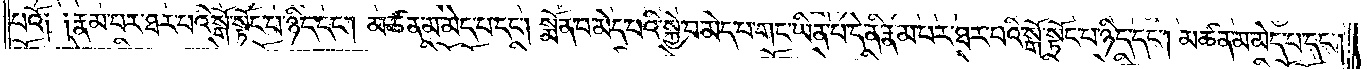པའོ། །རྣམ་པར་ཐར་པའི་སྒོ་སྟོང་པ་ཉིད་དང༌། མཚན་མ་མེད་པ་དང༌། སྨོན་པ་མེད་པའི་སྐྱེ་བ་མེད་པ་གང་ཡིན་པ་དེ་ནི་རྣམ་པར་ཐར་པའི་སྒོ་སྟོང་པ་ཉིད་དང༌། མཚན་མ་མེད་པ་དང༌།
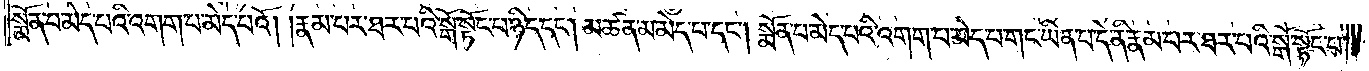སྨོན་པ་མེད་པའི་འགག་པ་མེད་པའོ། །རྣམ་པར་ཐར་པའི་སྒོ་སྟོང་པ་ཉིད་དང༌། མཚན་མ་མེད་པ་དང༌། སྨོན་པ་མེད་པའི་འགག་པ་མེད་པ་གང་ཡིན་པ་དེ་ནི་རྣམ་པར་ཐར་པའི་སྒོ་སྟོང་པ་
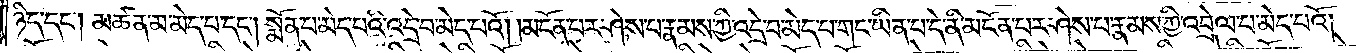ཉིད་དང༌། མཚན་མ་མེད་པ་དང༌། སྨོན་པ་མེད་པའི་འདྲེ་བ་མེད་པའོ། །མངོན་པར་ཤེས་པ་རྣམས་ཀྱི་འདྲེ་བ་མེད་པ་གང་ཡིན་པ་དེ་ནི་མངོན་པར་ཤེས་པ་རྣམས་ཀྱི་འབྲེལ་པ་མེད་པའོ།
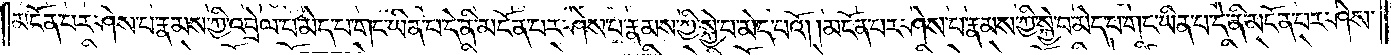མངོན་པར་ཤེས་པ་རྣམས་ཀྱི་འབྲེལ་པ་མེད་པ་གང་ཡིན་པ་དེ་ནི་མངོན་པར་ཤེས་པ་རྣམས་ཀྱི་སྐྱེ་བ་མེད་པའོ། །མངོན་པར་ཤེས་པ་རྣམས་ཀྱི་སྐྱེ་བ་མེད་པ་གང་ཡིན་པ་དེ་ནི་མངོན་པར་ཤེས་
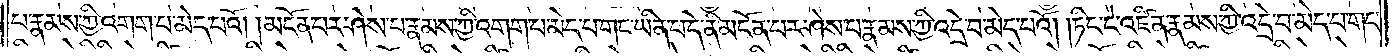པ་རྣམས་ཀྱི་འགག་པ་མེད་པའོ། །མངོན་པར་ཤེས་པ་རྣམས་ཀྱི་འགག་པ་མེད་པ་གང་ཡིན་པ་དེ་ནི་མངོན་པར་ཤེས་པ་རྣམས་ཀྱི་འདྲེ་བ་མེད་པའོ། །ཏིང་ངེ་འཛིན་རྣམས་ཀྱི་འདྲེ་བ་མེད་པ་གང་
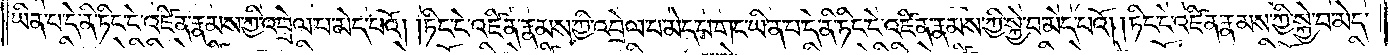ཡིན་པ་དེ་ནི་ཏིང་ངེ་འཛིན་རྣམས་ཀྱི་འབྲེལ་པ་མེད་པའོ། །ཏིང་ངེ་འཛིན་རྣམས་ཀྱི་འབྲེལ་པ་མེད་པ་གང་ཡིན་པ་དེ་ནི་ཏིང་ངེ་འཛིན་རྣམས་ཀྱི་སྐྱེ་བ་མེད་པའོ། །ཏིང་ངེ་འཛིན་རྣམས་ཀྱི་སྐྱེ་བ་མེད་
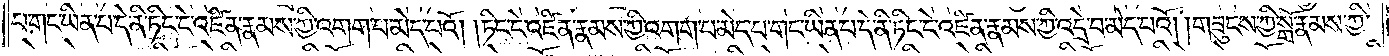པ་གང་ཡིན་པ་དེ་ནི་ཏིང་ངེ་འཛིན་རྣམས་ཀྱི་འགག་པ་མེད་པའོ། །ཏིང་ངེ་འཛིན་རྣམས་ཀྱི་འགག་པ་མེད་པ་གང་ཡིན་པ་དེ་ནི་ཏིང་ངེ་འཛིན་རྣམས་ཀྱི་འདྲེ་བ་མེད་པའོ། །གཟུངས་ཀྱི་སྒོ་རྣམས་ཀྱི་
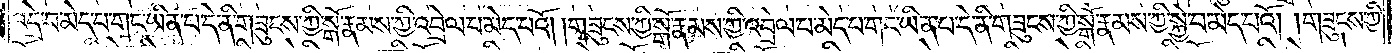འདྲེ་བ་མེད་པ་གང་ཡིན་པ་དེ་ནི་གཟུངས་ཀྱི་སྒོ་རྣམས་ཀྱི་འབྲེལ་པ་མེད་པའོ། །གཟུངས་ཀྱི་སྒོ་རྣམས་ཀྱི་འབྲེལ་པ་མེད་པ་གང་ཡིན་པ་དེ་ནི་གཟུངས་ཀྱི་སྒོ་རྣམས་ཀྱི་སྐྱེ་བ་མེད་པའོ། །གཟུངས་ཀྱི་
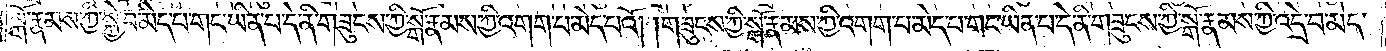སྒོ་རྣམས་ཀྱི་སྐྱེ་བ་མེད་པ་གང་ཡིན་པ་དེ་ནི་གཟུངས་ཀྱི་སྒོ་རྣམས་ཀྱི་འགག་པ་མེད་པའོ། །གཟུངས་ཀྱི་སྒོ་རྣམས་ཀྱི་འགག་པ་མེད་པ་གང་ཡིན་པ་དེ་ནི་གཟུངས་ཀྱི་སྒོ་རྣམས་ཀྱི་འདྲེ་བ་མེད་
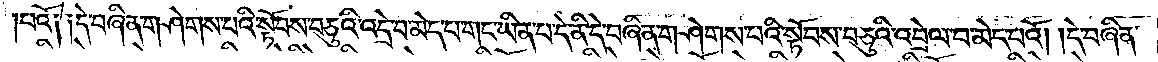པའོ༑ ༑དེ་བཞིན་གཤེགས་པའི་སྟོབས་བཅུའི་འདྲེ་བ་མེད་པ་གང་ཡིན་པ་དེ་ནི་དེ་བཞིན་གཤེགས་པའི་སྟོབས་བཅུའི་འབྲེལ་བ་མེད་པའོ། །དེ་བཞིན་
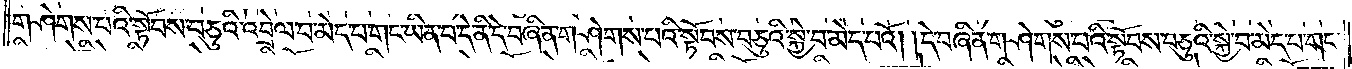གཤེགས་པའི་སྟོབས་བཅུའི་འབྲེལ་བ་མེད་པ་གང་ཡིན་པ་དེ་ནི་དེ་བཞིན་གཤེགས་པའི་སྟོབས་བཅུའི་སྐྱེ་བ་མེད་པའོ། །དེ་བཞིན་གཤེགས་པའི་སྟོབས་བཅུའི་སྐྱེ་བ་མེད་པ་གང་
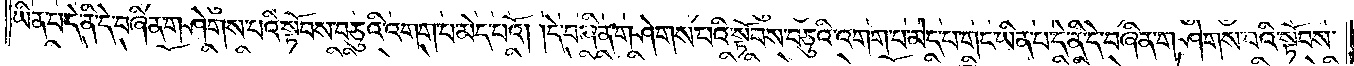ཡིན་པ་དེ་ནི་དེ་བཞིན་གཤེགས་པའི་སྟོབས་བཅུའི་འགག་པ་མེད་པའོ། །དེ་བཞིན་གཤེགས་པའི་སྟོབས་བཅུའི་འགག་པ་མེད་པ་གང་ཡིན་པ་དེ་ནི་དེ་བཞིན་གཤེགས་པའི་སྟོབས་
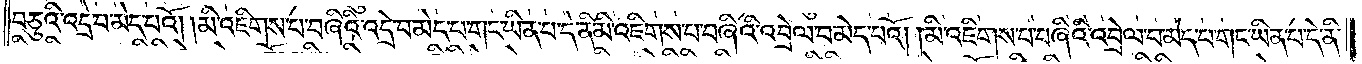བཅུའི་འདྲེ་བ་མེད་པའོ། །མི་འཇིགས་པ་བཞིའི་འདྲེ་བ་མེད་པ་གང་ཡིན་པ་དེ་ནི་མི་འཇིགས་པ་བཞིའི་འབྲེལ་བ་མེད་པའོ། །མི་འཇིགས་པ་བཞིའི་འབྲེལ་བ་མེད་པ་གང་ཡིན་པ་དེ་ནི་
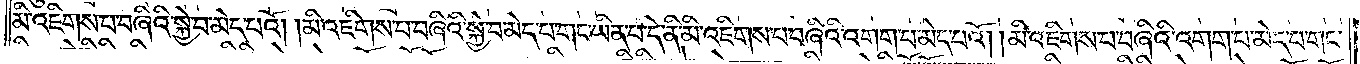མི་འཇིགས་པ་བཞིའི་སྐྱེ་བ་མེད་པའོ། །མི་འཇིགས་པ་བཞིའི་སྐྱེ་བ་མེད་པ་གང་ཡིན་པ་དེ་ནི་མི་འཇིགས་པ་བཞིའི་འགག་པ་མེད་པའོ། །མི་འཇིགས་པ་བཞིའི་འགག་པ་མེད་པ་གང་
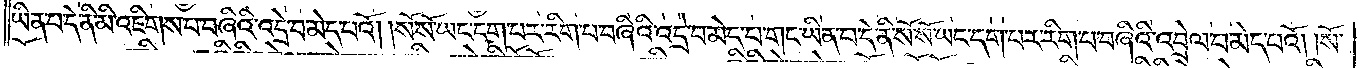ཡིན་པ་དེ་ནི་མི་འཇིགས་པ་བཞིའི་འདྲེ་བ་མེད་པའོ། །སོ་སོ་ཡང་དག་པར་རིག་པ་བཞིའི་འདྲེ་བ་མེད་པ་གང་ཡིན་པ་དེ་ནི་སོ་སོ་ཡང་དག་པར་རིག་པ་བཞིའི་འབྲེལ་པ་མེད་པའོ། །སོ་
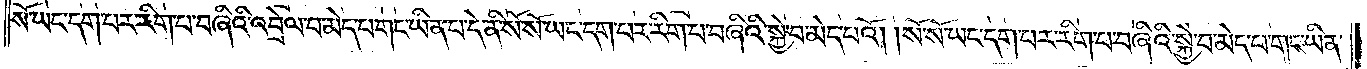སོ་ཡང་དག་པར་རིག་པ་བཞིའི་འབྲེལ་བ་མེད་པ་གང་ཡིན་པ་དེ་ནི་སོ་སོ་ཡང་དག་པར་རིག་པ་བཞིའི་སྐྱེ་བ་མེད་པའོ། །སོ་སོ་ཡང་དག་པར་རིག་པ་བཞིའི་སྐྱེ་བ་མེད་པ་གང་ཡིན་
